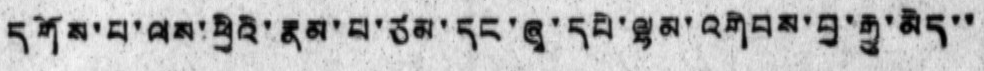དགོས་པ་ལས་ཕྱིའི་རྣམ་པ་ཙམ་དང་ཞྭ་དཔེ་ལྷམ་འགེབས་བྱ་རྒྱུ་མེད་་
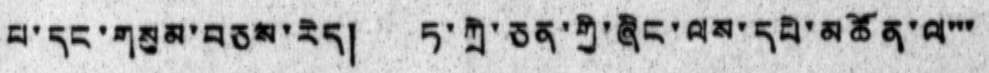པ་དང་གསུམ་བཅས་རེད། ཏ་ཀྲེ་ཅན་གྱི་ཞིང་ལས་དཔེ་མཚོན་ལ་་་
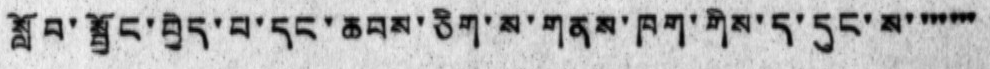སློབ་སྦྱོང་བྱེད་པ་དང་ཆབས་ཅིག་ས་གནས་ཁག་གིས་ད་དུང་ས་ ་་་་་་
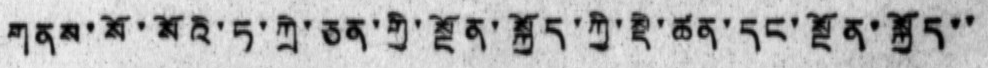གནས་སོ་སོའི་ཏ་ཀྲེ་ཅན་གྱི་སྔོན་སྐྱོད་ཀྱི་སྡེ་ཚན་དང་སྔོན་སྐྱོད་་
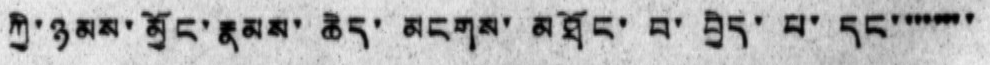ཀྱི་ཉམས་མྱོང་རྣམས་ ཆེད་ མངགས་ མཐོང་ བ་ བྱེད་ པ་ དང་ ་་་་་་་
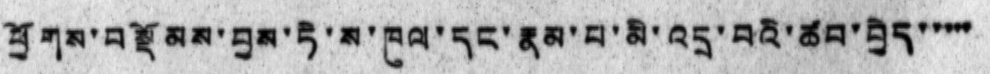ཕྱོགས་བསྡོམས་བྱས་ཏེ་ས་ཁུལ་དང་རྣམ་པ་མི་འདྲ་བའི་ཚབ་བྱེད་་་་་
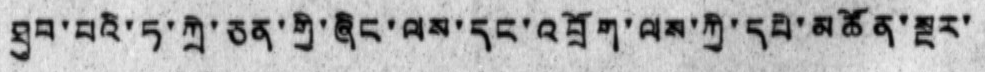ཐུབ་པའི་ཏ་ཀྲེ་ཅན་གྱི་ཞིང་ལས་དང་འབྲོག་ལས་ཀྱི་དཔེ་མཚོན་སྔར་
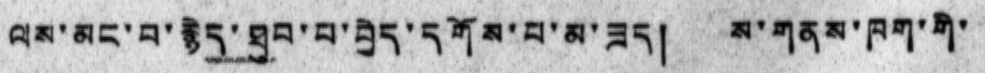ལས་མང་བ་རྙེད་ཐུབ་པ་བྱེད་དགོས་པ་མ་ཟད། ས་གནས་ཁག་གི་
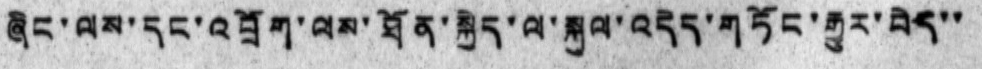ཞིང་ལས་དང་འབྲོག་ལས་ཐོན་སྐྱེད་ལ་སྐུལ་འདེད་གཏོང་རྒྱུར་བེད་་
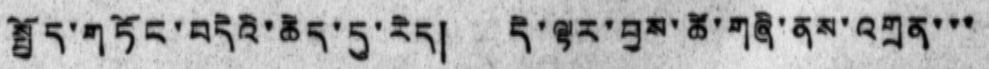སྤྱོད་གཏོང་བདེའི་ཆེད་དུ་རེད། དེ་ལྟར་བྱས་ཚེ་གཞི་ནས་འགྲན་་་
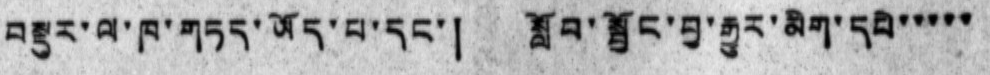བསྡུར་ལ་ཁ་གཏད་ཡོད་པ་དང་། སློབ་སྦྱོང་བྱ་རྒྱུར་མིག་དཔེ་་་་་
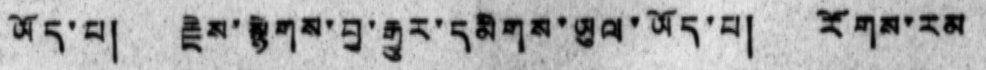ཡོད་པ། རྗེས་སྙེགས་བྱ་རྒྱུར་དམིགས་ཡུལ་ཡོད་པ། རོགས་རམ
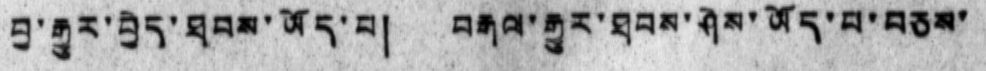བྱ་རྒྱུར་བྱེད་ཐབས་ཡོད་པ། བརྒལ་རྒྱུར་ཐབས་ཤེས་ཡོད་པ་བཅས་
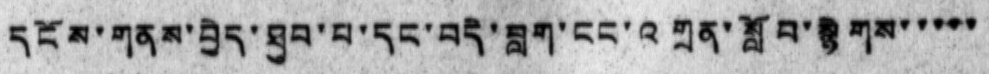དངོས་གནས་བྱེད་ཐུབ་པ་དང་བདེ་བླག་ངང་འགྲན་སློབ་སྙེགས་་་་་
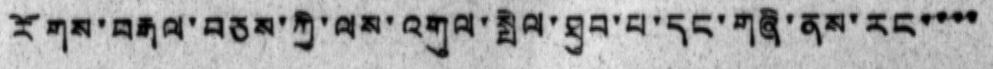རོགས་བརྒལ་བཅས་ཀྱི་ལས་འགུལ་སྤེལ་ཐུབ་པ་དང་གཞི་ནས་རང་་་་
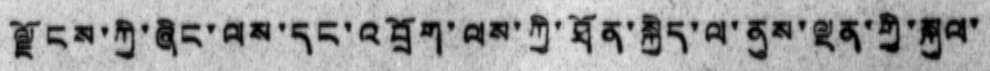ལྗོངས་ཀྱི་ཞིང་ལས་དང་འབྲོག་ལས་ཀྱི་ཐོན་སྐྱེད་ལ་ནུས་ལྡན་གྱི་སྐུལ་
